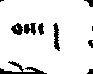བས་ །
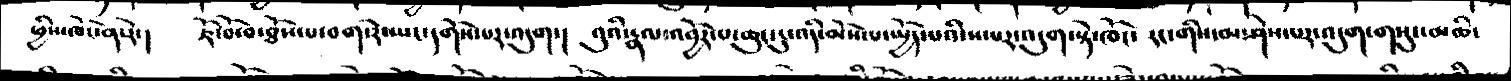ཕྱིས་ཁོང་ན་རེ་།   ཇོ་བོ་བ་ཐོས་པ་བག་རེ་ཡང་དགོས་པར་འདུག་།    བུའི་རྣལ་འབྱོར་པ་ཆུང་ངུ་འདི་མོས་པ་སྤྱོད་པའི་ས་སར་འདུག་སྟེ་ཁོང་  རང་གིས་མ་ཤེས་པར་འདུག་གསུང་མཆི་
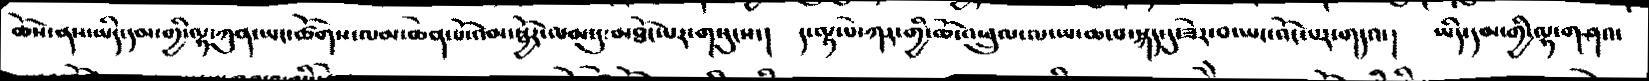ཆོས་ནས་ཡིད་དམ་གྱི་ལྷ་ཀུན་ཡང་ཚོགས་ལམ་ཆེན་པོ་འམ་སྦྱོར་ལམ་དུ་མཐོང་པར་གསུངས་།   ད་ལྟ་པེ་ཀར་གྱི་ཆོ་འཕྲུལ་ལ་ཡ་བ་སྐད་དུ་ཟེར་བ་ཡང་འོང་པར་གདའ་།    ཡིད་དམ་གྱི་ལྷ་གཤའ་
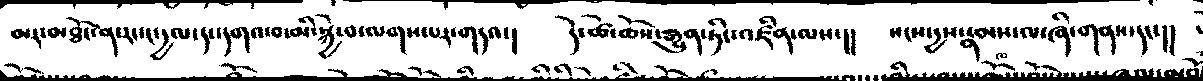མར་མཐོང་ན་རང་ང་དྱལ་དང་འགའ་བ་མི་སྐྱེ་བ་ལགས་པར་གདའ་།    དེ་ཚེ་ཆོས་རྒྱུན་ཏིང་འཛིན་ལས་།།   སངས་དྱས་རྣམས་ལ་ཞི་གནས་དང་།།
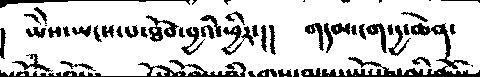ཡེེས་ཡངས་པ་ཐོབ་བྱའི་ཕྱིར་།།   གདམ་ངག་དྱ་ཆེན་
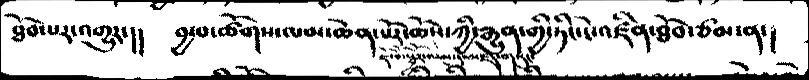ཐོབ་པར་འགྱུར་།    བྱ་བ་ཚོགས་ལམ་ཆེན་པོར་ཆོས་ཀྱི་རྒྱུན་གྱི་ཏིང་ངེ་འཛིན་ཐོབ་ཙམ་ན་།
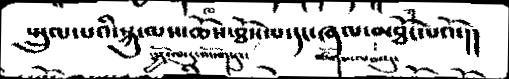ཡྲུལ་པའི་སྐུ་ལས་ཆོས་ཐོས་པ་དང་ཞལ་མཐོང་པའོ་།།
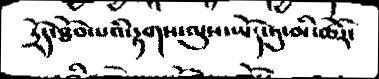ཏྲོད་ཐོབ་པའི་རྟགས་སུ་ལུས་ཡོད་ཏུ་མི་ཚེར་
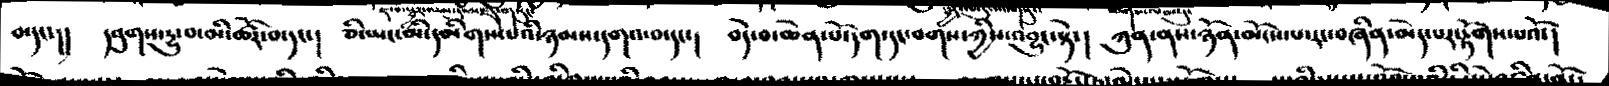བ་དང་།།  དབུགས་དྱུ་བ་མི་ཚོར་བ་དང་།   ཅི་ཡང་མི་དམིགས་པའི་ཉམས་དགའ་བ་དང་།  བདེ་བ་ཆེན་པོ་དག་དང་བགས་ཀྱིས་འབྱུང་སྟེ་།   ཀུན་ནས་ཉོན་མོངས་པ་རང་བཞིན་མེད་པར་རྟོགས་པའོ་།
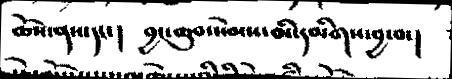ཆོས་ནས་དང་།   བྱང་ཆུབ་སེམས་མི་དམིགས་བྱ་བ་།
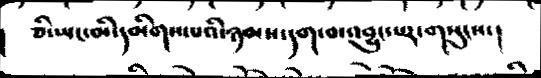ཅི་ཡང་མི་དམིགས་པའི་ཉམས་དག་པ་འབྱུང་པར་གསུངས་།
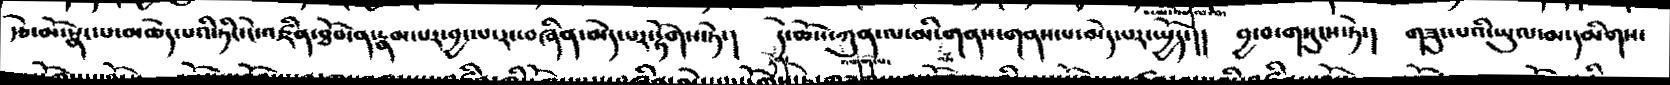རྩེ་མོ་སྣང་པ་མཆེད་པའི་ཏིང་ངེ་འཛིན་ཐོབ་ན་རྣམ་པར་བྱང་པ་རང་བཞིན་མེད་པར་རྟོགས་ཏེ།   དེ་ཆོས་ཀུན་ལ་མི་གནས་པ་མེད་སྤྱོད་།།  བྱ་བ་གསུངས་ཏེ་།    གཟུང་པའི་ཡུལ་མ་དམིགས་
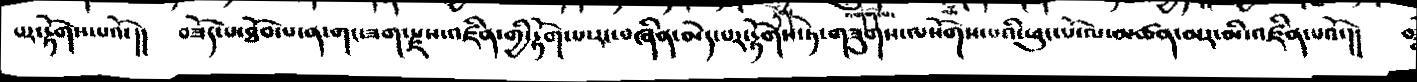པར་རྟོགས་པའོ་།།   བཟོད་པ་ཐོབ་པ་ན་གང་ཟག་རྫས་འཛིན་གྱི་རྟོང་པ་རང་བཞིན་མེད་པར་རྟོགས་ཏེ་གཟུགས་ལསོགས་པའི་ཕུང་པོ་ལ་མཚན་མར་འཛིན་པའོ་།།
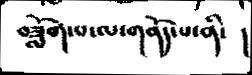བཟློག་པ་ལ་གནོད་པ་ནི་  །
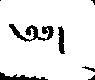༅༅།
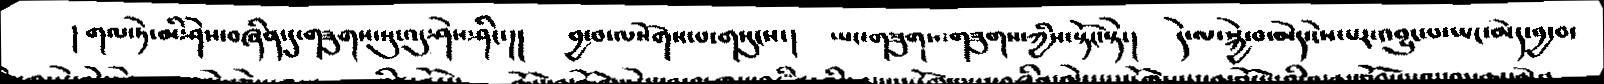གལ་ཏེ་མི་ཤེས་བཞིན་དུ་གཟུགས་སུ་འདུ་ཤེས་ཤིང་།།   བྱ་བ་ལསོགས་པ་གསུངས་།   ཡང་གཟུགས་ཀྱིས་སྟོང་སྟེ་།     དེ་ལ་སྐྱེ་བ་མེད་ངེས་པར་འབྱུང་པ་ཡང་མེད་བྱ་བ་
